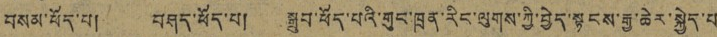བསམ་ཕོད་པ། བཤད་ཕོད་པ། སྒྲུབ་ཕོད་པའི་གུང་ཁྲན་རིང་ལུགས་ཀྱི་བྱེད་སྟངས་རྒྱ་ཆེར་སྐྱེད་པ
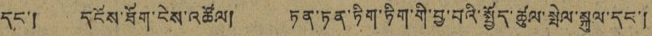དང་། དངོས་ཐོག་ངེས་འཚོལ། ཏན་ཏན་ཏིག་ཏིག་གི་བྱ་བའི་སྤྱོད་ཚུལ་སྤེལ་སྐུལ་དང་།
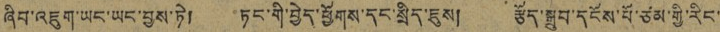ཞིབ་འཇུག་ཡང་ཡང་བྱས་ཏེ། ཏང་གི་བྱེད་ཕྱོགས་དང་སྲིད་ཇུས། རྩོད་སྒྲུབ་དངོས་པོ་ཙམ་གྱི་རིང་
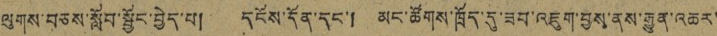ལུགས་བཅས་སློབ་སྦྱོང་བྱེད་པ། དངོས་དོན་དང་། མང་ཚོགས་ཁྲོད་དུ་ཟབ་འཇུག་བྱས་ནས་རྒྱུན་འཆར་
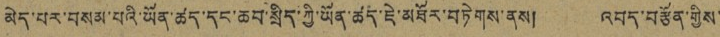མེད་པར་བསམ་པའི་ཡོན་ཚད་དང་ཆབ་སྲིད་ཀྱི་ཡོན་ཚད་ཇེ་མཐོར་བཏེགས་ནས། འབད་བརྩོན་གྱིས་
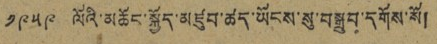༡༩༥༩ ལོའི་མཆོང་སྐྱོད་མཛུབ་ཚད་ཡོངས་སུ་བསྒྲུབ་དགོས་སོ།
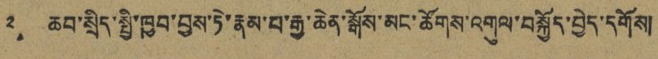༢ ཆབ་སྲིད་སྤྱི་ཁྱབ་བྱས་ཏེ་རྣམ་པ་རྒྱ་ཆེན་སྒོས་མང་ཚོགས་འགུལ་བསྐྱོད་བྱེད་དགོས།
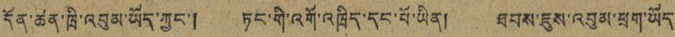དོན་ཚན་ཁྲི་འབུམ་ཡོད་ཀྱང་། ཏང་གི་འགོ་འཁྲིད་དང་པོ་ཡིན། ཐབས་ཇུས་འབུམ་ཕྲག་ཡོད
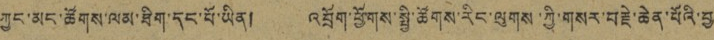ཀྱང་མང་ཚོགས་ལམ་ཐིག་དང་པོ་ཡིན། འབྲོག་ཕྱོགས་སྤྱི་ཚོགས་རིང་ལུགས་ཀྱི་གསར་བརྗེ་ཆེན་པོའི་བྱ
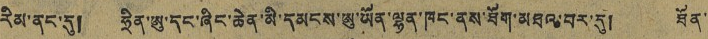རིམ་ནང་དུ། ཧྲིན་ཨུ་དང་ཞིང་ཆེན་མི་དམངས་ཨུ་ཡོན་ལྷན་ཁང་ནས་ཐོག་མཐའ་བར་དུ། ཐོན
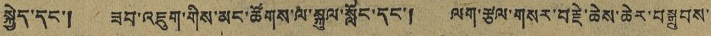སྐྱེད་དང་། ཟབ་འཇུག་གིས་མང་ཚོགས་ལ་སྐུལ་སློང་དང་། ལག་རྩལ་གསར་བརྗེ་ཆེས་ཆེར་བསྒྲུབས་
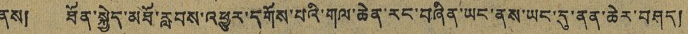ནས། ཐོན་སྐྱེད་མཐོ་རླབས་འཕྱུར་དགོས་པའི་གལ་ཆེན་རང་བཞིན་ཡང་ནས་ཡང་དུ་ནན་ཆེར་བཤད།
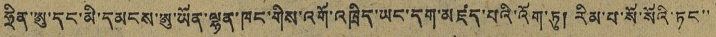ཧྲིན་ཨུ་དང་མི་དམངས་ཨུ་ཡོན་ལྷན་ཁང་གིས་འགོ་འཁྲིད་ཡང་དག་མཛད་པའི་འོག་ཏུ། རིམ་པ་སོ་སོའི་ཏང་་
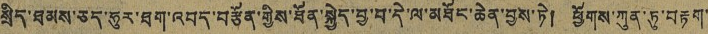སྲིད་ཐམས་ཅད་ཧུར་ཐག་འབད་བརྩོན་གྱིས་ཐོན་སྐྱེད་བྱ་བ་དེ་ལ་མཐོང་ཆེན་བྱས་ཏེ། ཕྱོགས་ཀུན་ཏུ་བརྟག་
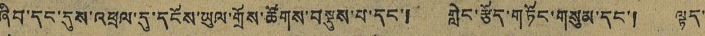ཞིབ་དང་དུས་འཕྲལ་དུ་དངོས་ཡུལ་གྲོས་ཚོགས་བསྡུས་པ་དང་། གླེང་རྩོད་གཏོང་གསུམ་དང་། ལྟད་
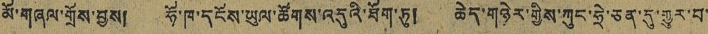མོ་གཞལ་གྲོས་བྱས། ཧོ་ཁ་དངོས་ཡུལ་ཚོགས་འདུའི་ཐོག་ཏུ། ཆེད་གཉེར་གྱིས་ཀུང་ཧྲེ་ཅན་དུ་གྱུར་བ་
